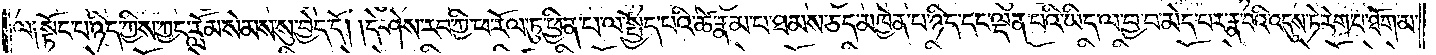ལ༑ སྟོང་པ་ཉིད་ཀྱིས་ཀྱང་རློམ་སེམས་སུ་བྱེད་དོ། །དེ་ཤེས་རབ་ཀྱི་ཕ་རོལ་ཏུ་ཕྱིན་པ་ལ་སྤྱོད་པའི་ཚེ་རྣམ་པ་ཐམས་ཅད་མཁྱེན་པ་ཉིད་དང་ལྡན་པའི་ཡིད་ལ་བྱ་བ་མེད་པར་རྣ་བའི་འདུས་ཏེ་རེག་པ་ཐོག་མ་
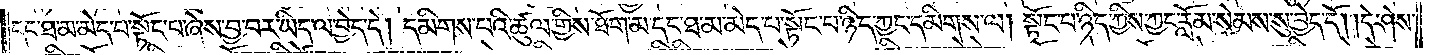དང་ཐ་མ་མེད་པ་སྟོང་པ་ཞེས་བྱ་བར་ཡིད་ལ་བྱེད་དེ། དམིགས་པའི་ཚུལ་གྱིས་ཐོག་མ་དང་ཐ་མ་མེད་པ་སྟོང་པ་ཉིད་ཀྱང་དམིགས་ལ། སྟོང་པ་ཉིད་ཀྱིས་ཀྱང་རློམ་སེམས་སུ་བྱེད་དོ། །དེ་ཤེས་
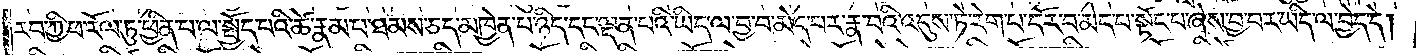རབ་ཀྱི་ཕ་རོལ་ཏུ་ཕྱིན་པ་ལ་སྤྱོད་པའི་ཚེ་རྣམ་པ་ཐམས་ཅད་མཁྱེན་པ་ཉིད་དང་ལྡན་པའི་ཡིད་ལ་བྱ་བ་མེད་པར་རྣ་བའི་འདུས་ཏེ་རེག་པ་དོར་བ་མེད་པ་སྟོང་པ་ཞེས་བྱ་བར་ཡིད་ལ་བྱེད་དེ།
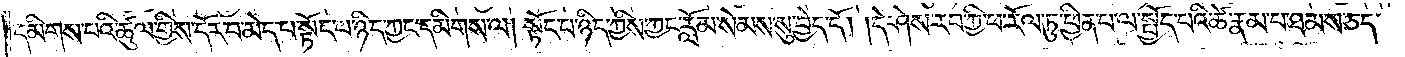དམིགས་པའི་ཚུལ་གྱིས་དོར་བ་མེད་པ་སྟོང་པ་ཉིད་ཀྱང་དམིགས་ལ། སྟོང་པ་ཉིད་ཀྱིས་ཀྱང་རློམ་སེམས་སུ་བྱེད་དོ། །དེ་ཤེས་རབ་ཀྱི་ཕ་རོལ་ཏུ་ཕྱིན་པ་ལ་སྤྱོད་པའི་ཚེ་རྣམ་པ་ཐམས་ཅད་
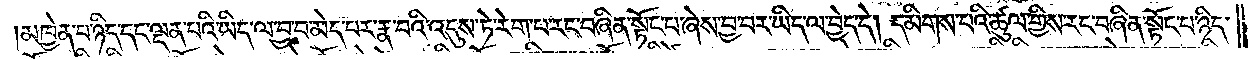མཁྱེན་པ་ཉིད་དང་ལྡན་པའི་ཡིད་ལ་བྱ་བ་མེད་པར་རྣ་བའི་འདུས་ཏེ་རེག་པ་རང་བཞིན་སྟོང་པ་ཞེས་བྱ་བར་ཡིད་ལ་བྱེད་དེ། དམིགས་པའི་ཚུལ་གྱིས་རང་བཞིན་སྟོང་པ་ཉིད་
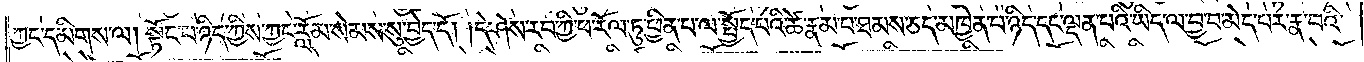ཀྱང་དམིགས་ལ། སྟོང་པ་ཉིད་ཀྱིས་ཀྱང་རློམ་སེམས་སུ་བྱེད་དོ། །དེ་ཤེས་རབ་ཀྱི་ཕ་རོལ་ཏུ་ཕྱིན་པ་ལ་སྤྱོད་པའི་ཚེ་རྣམ་པ་ཐམས་ཅད་མཁྱེན་པ་ཉིད་དང་ལྡན་པའི་ཡིད་ལ་བྱ་བ་མེད་པར་རྣ་བའི་
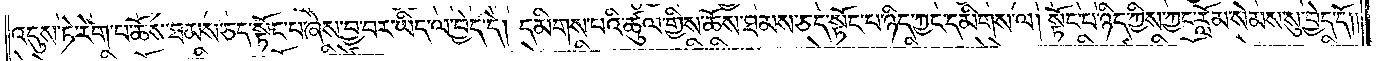འདུས་ཏེ་རེག་པ་ཆོས་ཐམས་ཅད་སྟོང་པ་ཞེས་བྱ་བར་ཡིད་ལ་བྱེད་དེ། དམིགས་པའི་ཚུལ་གྱིས་ཆོས་ཐམས་ཅད་སྟོང་པ་ཉིད་ཀྱང་དམིགས་ལ། སྟོང་པ་ཉིད་ཀྱིས་ཀྱང་རློམ་སེམས་སུ་བྱེད་དོ༎
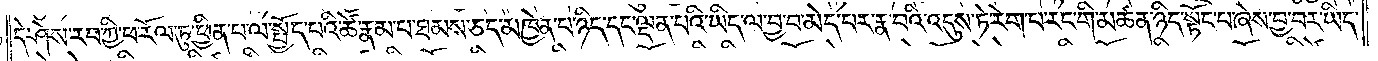དེ་ཤེས་རབ་ཀྱི་ཕ་རོལ་ཏུ་ཕྱིན་པ་ལ་སྤྱོད་པའི་ཚེ་རྣམ་པ་ཐམས་ཅད་མཁྱེན་པ་ཉིད་དང་ལྡན་པའི་ཡིད་ལ་བྱ་བ་མེད་པར་རྣ་བའི་འདུས་ཏེ་རེག་པ་རང་གི་མཚན་ཉིད་སྟོང་པ་ཞེས་བྱ་བར་ཡིད་
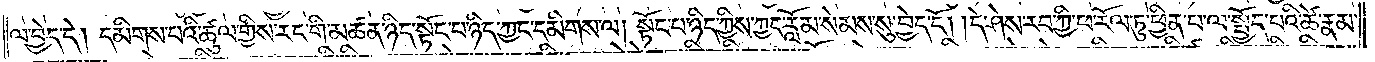ལ་བྱེད་དེ། དམིགས་པའི་ཚུལ་གྱིས་རང་གི་མཚན་ཉིད་སྟོང་པ་ཉིད་ཀྱང་དམིགས་ལ། སྟོང་པ་ཉིད་ཀྱིས་ཀྱང་རློམ་སེམས་སུ་བྱེད་དོ། །དེ་ཤེས་རབ་ཀྱི་ཕ་རོལ་ཏུ་ཕྱིན་པ་ལ་སྤྱོད་པའི་ཚེ་རྣམ་
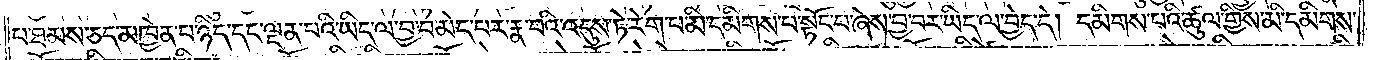པ་ཐམས་ཅད་མཁྱེན་པ་ཉིད་དང་ལྡན་པའི་ཡིད་ལ་བྱ་བ་མེད་པར་རྣ་བའི་འདུས་ཏེ་རེག་པ་མི་དམིགས་པ་སྟོང་པ་ཞེས་བྱ་བར་ཡིད་ལ་བྱེད་དེ། དམིགས་པའི་ཚུལ་གྱིས་མི་དམིགས་
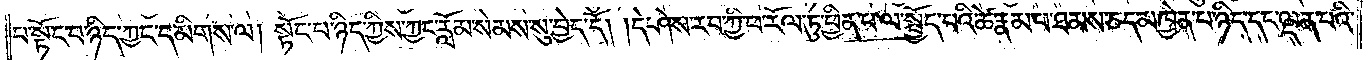པ་སྟོང་པ་ཉིད་ཀྱང་དམིགས་ལ། སྟོང་པ་ཉིད་ཀྱིས་ཀྱང་རློམ་སེམས་སུ་བྱེད་དོ། །དེ་ཤེས་རབ་ཀྱི་ཕ་རོལ་ཏུ་ཕྱིན་པ་ལ་སྤྱོད་པའི་ཚེ་རྣམ་པ་ཐམས་ཅད་མཁྱེན་པ་ཉིད་དང་ལྡན་པའི་
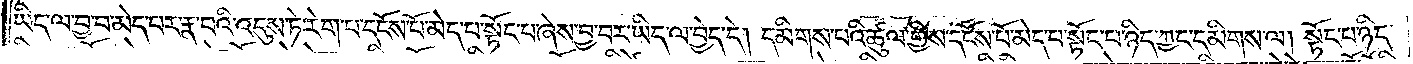ཡིད་ལ་བྱ་བ་མེད་པར་རྣ་བའི་འདུས་ཏེ་རེག་པ་དངོས་པོ་མེད་པ་སྟོང་པ་ཞེས་བྱ་བར་ཡིད་ལ་བྱེད་དེ། དམིགས་པའི་ཚུལ་གྱིས་དངོས་པོ་མེད་པ་སྟོང་པ་ཉིད་ཀྱང་དམིགས་ལ། སྟོང་པ་ཉིད་
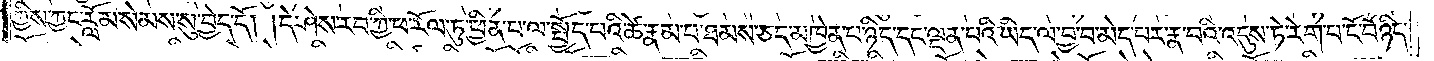ཀྱིས་ཀྱང་རློམ་སེམས་སུ་བྱེད་དོ། །དེ་ཤེས་རབ་ཀྱི་ཕ་རོལ་ཏུ་ཕྱིན་པ་ལ་སྤྱོད་པའི་ཚེ་རྣམ་པ་ཐམས་ཅད་མཁྱེན་པ་ཉིད་དང་ལྡན་པའི་ཡིད་ལ་བྱ་བ་མེད་པར་རྣ་བའི་འདུས་ཏེ་རེག་པ་ངོ་བོ་ཉིད་
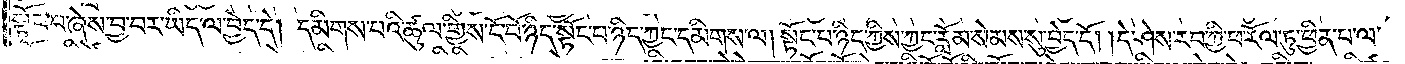སྟོང་པ་ཞེས་བྱ་བར་ཡིད་ལ་བྱེད་དེ། དམིགས་པའི་ཚུལ་གྱིས་ངོ་བོ་ཉིད་སྟོང་པ་ཉིད་ཀྱང་དམིགས་ལ། སྟོང་པ་ཉིད་ཀྱིས་ཀྱང་རློམ་སེམས་སུ་བྱེད་དོ། །དེ་ཤེས་རབ་ཀྱི་ཕ་རོལ་ཏུ་ཕྱིན་པ་ལ་
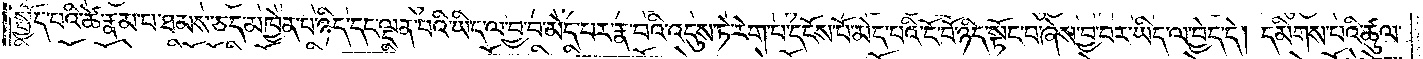སྤྱོད་པའི་ཚེ་རྣམ་པ་ཐམས་ཅད་མཁྱེན་པ་ཉིད་དང་ལྡན་པའི་ཡིད་ལ་བྱ་བ་མེད་པར་རྣ་བའི་འདུས་ཏེ་རེག་པ་དངོས་པོ་མེད་པའི་ངོ་བོ་ཉིད་སྟོང་པ་ཞེས་བྱ་བར་ཡིད་ལ་བྱེད་དེ། དམིགས་པའི་ཚུལ་
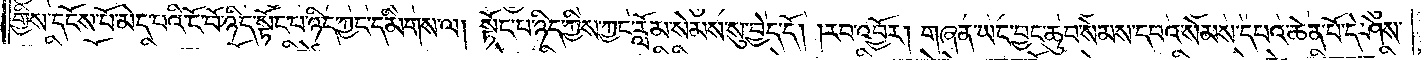གྱིས་དངོས་པོ་མེད་པའི་ངོ་བོ་ཉིད་སྟོང་པ་ཉིད་ཀྱང་དམིགས་ལ། སྟོང་པ་ཉིད་ཀྱིས་ཀྱང་རློམ་སེམས་སུ་བྱེད་དོ། །རབ་འབྱོར། གཞན་ཡང་བྱང་ཆུབ་སེམས་དཔའ་སེམས་དཔའ་ཆེན་པོ་དེ་ཤེས་
